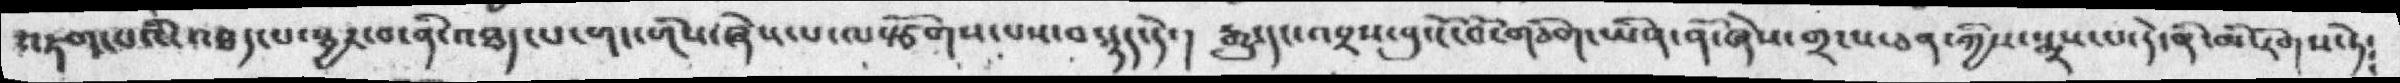འཇག་པའི་འཐད་པ་སྦྱར་བ་ནི་འཐད་པ་གང་གིས་ཞེས་པ་ལསྩོགས་པས་བསྙད་དེ་།  རྒྱུ་དང་འབྲས་བུ་ངོ་བོ་གཅིག་ཡིན་ནོ་ཞེས་གྲངས་ཅན་ཀྱིས་སྨྲས་པ་དེ་ནི་མི་རིགས༴ཏེ
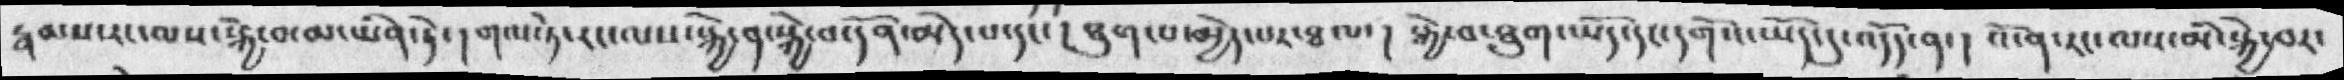རྣམས་རང་ལས་སྐྱེ་བ་མ་ཡིན་ཏེ་།  གལ་ཏེ་རང་ལས་སྐྱེ་ན་སྐྱེ་བ་དོན་མེད་པ་དང་།  ཐུག་པ་མྱེད་པར་ཐལ་།  སྐྱེ་བ་ཐུག་ཡོད་དང་དགོས་ཡོད་དུ་འདོད་ན་། འོ་ན་རང་ལས་མི་སྐྱེ་བར་
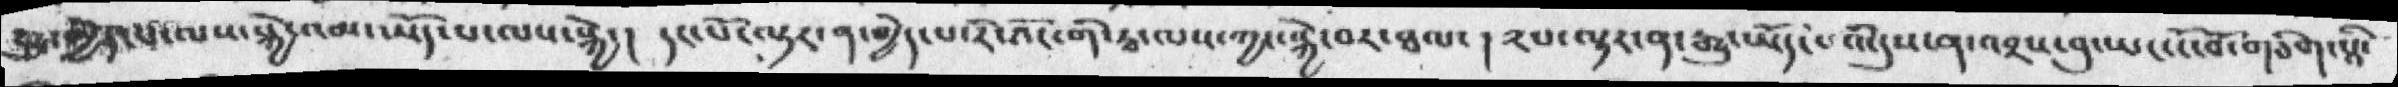སྤུ་མྱེད་པ་ལས་སྐྱེ་འམ་ཡོད་པ་ལས་སྐྱེ་།  དང་པོ་ལྟར་ན་གྱེད་པ་རི་འོང་གི་རྦ་ལས་ཀྱང་སྐྱེ་བར་ཐལ་། ༢པ་ལྟར་ན་རྒྱུ་ཡོད་པའི་དུས་ན་འབྲས་བུ་ཡང་ངོ་བོ་གཅིག་སྡི་
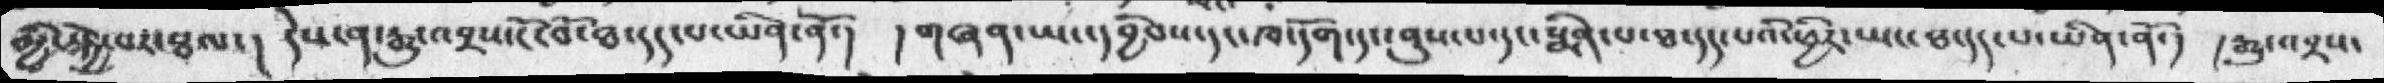མྱི་སྐྱེ་བར་ཐལ་།  དེས་ན་རྒྱུ་འབྲས་ངོ་བོ་ཐ་དད་པ་ཡིན་ནོ་།  ། གཞན་ཡང་དབྱིབས་དང་ཁ་དོག་དང་ནུས་པ་དང་སྨིན་པ་ཐ་དད་པའི་ཕྱིར་ཡང་ཐ་དད་པ་ཡིན་ནོ་།  །རྒྱུ་འབྲས་
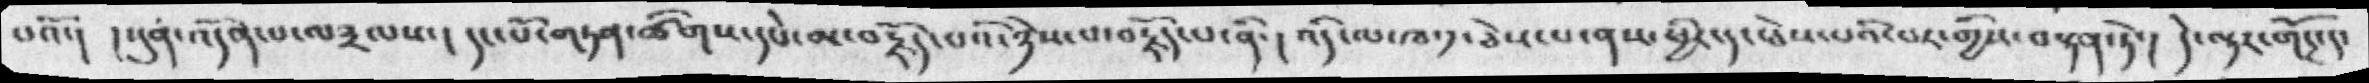པའོ་།  །སུན་འདོན་པ་ལ༣ལས་། དང་པོ་གཏན་ཚིགས་དཔེ་མ་བརྗོད་པའི་ཉེས་པ་བརྗོད་པ་ནི་།  འདི་ལ་ཁ༡་ཅེས་པ་ནས་ཕྱིར་དང་ཅེས་པའི་བར་གྱིས་བསྟན་ཏེ་།  དེ་ལྟར་གོང་དུ་
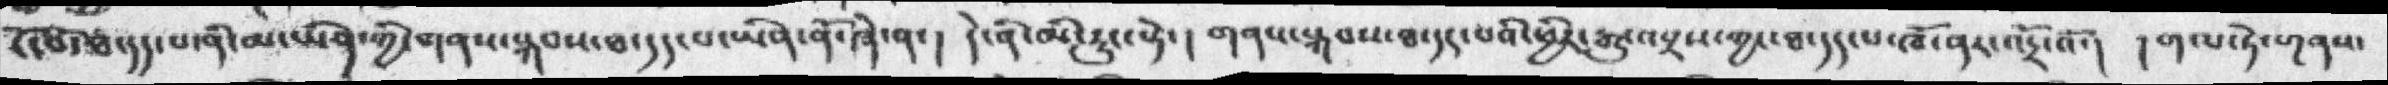ངོ་བོ་ཐ་དད་པ་ནི་མ་ཡིན་ཀྱི་གནས་སྐབས་ཐ་དད་པ་ཡིན་ནོ་ཞེ་ན་།  དེ་ནི་མི་རུང་སྟེ་། གནས་སྐབས་ཐ་དད་པའི་ཕྱིར་རྒྱུ་འབྲས་ཀྱང་ཐ་དད་པ་ཁོ་ནར་འདྲོ་འོ་།  ། གལ་ཏེ་གནས་
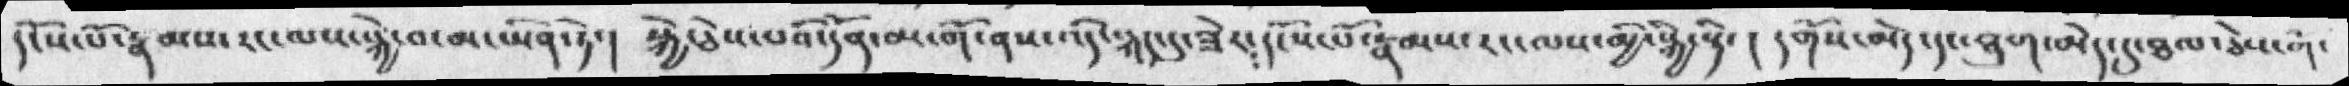དངོས་པོ་རྣམས་རང་ལས་སྐྱེ་བ་མ་ཡིན་ཏེ་།  སྐྱེ་ཅེས་པའི་དོན་མ་གོ་ནས་འདི་སྐད་དུ་ཟེར༴དངོས་པོ་རྣམས་རང་ལས་མྱི་སྐྱི་སྟེ་།  དགོས་མེད་དང་ཐུག་མེད་དུ་ཐལ་ཅེས་གི་
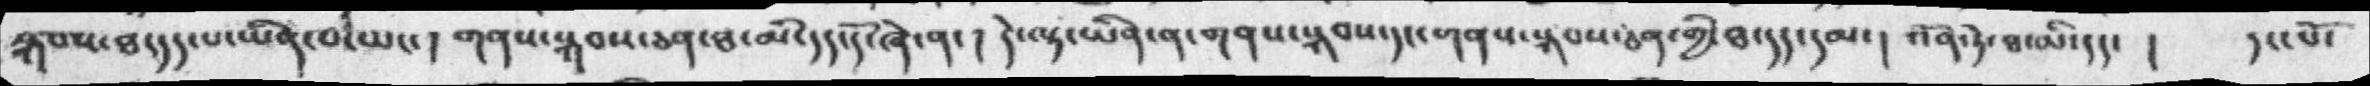སྐབས་ཐ་དད་པ་ཡིན་པ་ཡང་།  གནས་སྐབས་ཅན་ཐ་མི་དད་དོ་ཞེ་ན་།  དེ་ལྟ་ཡིན་ན་གནས་སྐབས་དང་གནས་སྐབས་ཅན་གྱི་ཐ་དད་དམ་།  འོན་ཏེ་ཐ་མི་དད་ ། དང་པོ་
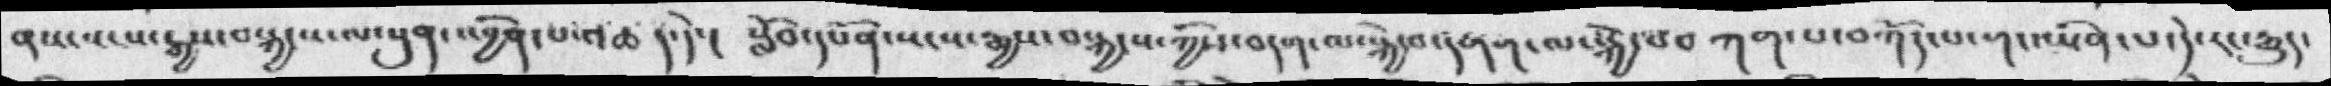ནས་སངས་རྒྱས་བསྐྱངས་ལ་སུན་འབྱིན་པ་འཆད་དེ་།  སློབ་དཔོན་སངས་རྒྱས་བསྐྱངས་ཀྱིས་བདག་ལ་སྐྱེ་བ་དགག་ལ་སྐྱེ་བབཀག་པ་བཀོད་པ་གང་ཡིན་པ་དེ་རང་རྒྱུད་
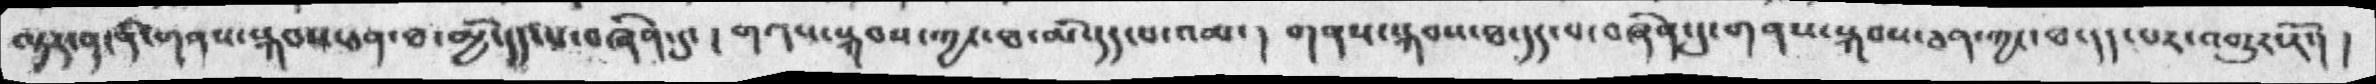ལྟར་ན་ནི་གནས་སྐབས་ཅན་ཐ་མྱི་དད་པ་བཞིན་དུ་ ། གནས་སྐབས་ཀྱང་ཐ་མི་དད་པ་འམ་།  གནས་སྐབས་ཐ་དད་པ་བཞིན་དུ་གནས་སྐབས་ཅན་ཀྱང་ཐ་དད་པར་འགྱུར་རོ་། །
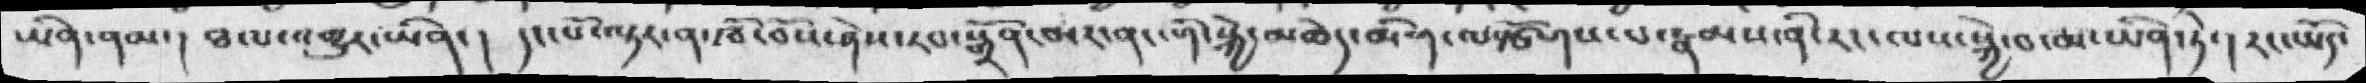ཡིན་ནམ་། ཐལ་འགྱུར་ཡིན་།  དང་པོ་ལྟར་ན་ཁོ་བོས་ཤེས་རབ་སྒྲོན་མར་ནང་གི་སྐྱེ་མཆེད་མིག་ལསྩོགས་པ་རྣམས་ནི་རང་ལས་སྐྱེ་བ་མ་ཡིན་ཏེ་།  རང་ཡོད་
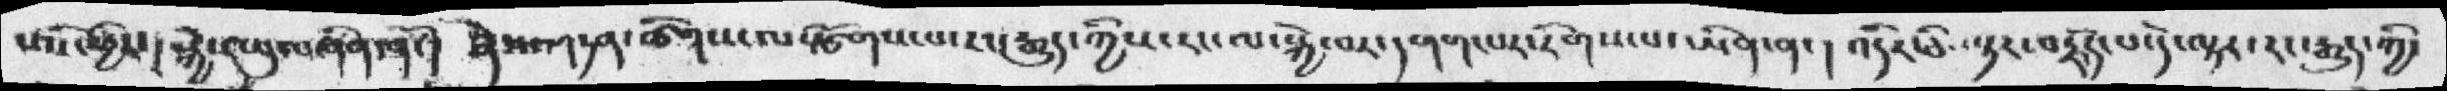པའི་ཕྱིར་། སྐྱེས་བུ་བཞིན་ནོ་།  ཞེས་གཏན་ཚིགས་ལསྩོགས་པ་རང་རྒྱུད་ཀྱིས་རང་ལ་སྐྱེ་བར་དགག་པར་རིགས་པ་ཡིན་ན་ ། འདིར་ཅི་ལྟར་བརྗོད་པ་དེ་ལྟར་རང་རྒྱུད་གྱི་
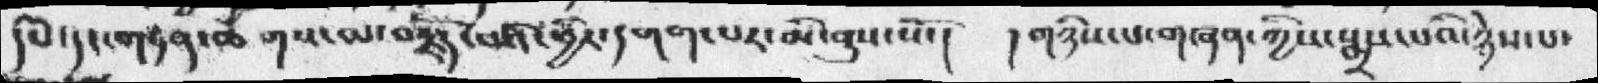དཔེ་དང་གཏན་ཚིགས་མ་བརྗོད་པའི་ཕྱིར་དགག་པར་མི་ནུས་སོ་།  ། གཉིས་པ་གཞན་ཀྱིས་སྨྲས་པའི་ཉེས་པ་
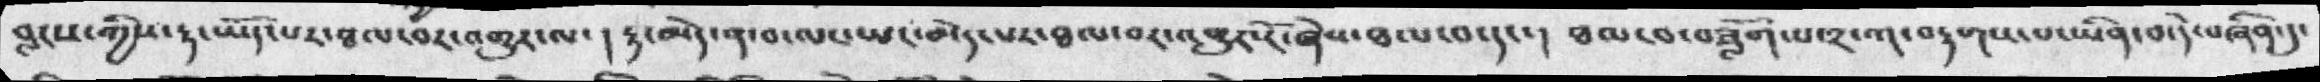བླངས་ཀྱིས་རྟ་ཡོད་པར་ཐལ་བར་འགྱུར་ལ་། རྟ་མེད་ན་བ་ལང་ཡང་མེད་པར་ཐལ་བར་འགྱུར་རོ་ཞེས་ཐལ་བ་དང་།  ཐལ་བ་བཟློག་པ་༢་ཀ་བརྟགས་པ་ཡིན་བ་དེ་བཞིན་དུ་
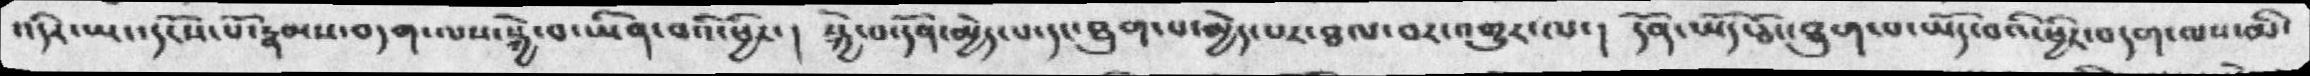འདིར་ཡང་དངོས་པོ་རྣམས་བདག་ལས་སྐྱེ་བ་ཡིན་བའི་ཕྱིར་།  སྐྱེ་བ་དོན་མྱེད་པ་དང་ཐུགས་མྱེད་པར་ཐལ་བར་འགྱུར་ལ་།  དོན་ཡོད་ཅོང་ཐུག་པ་ཡོད་པའི་ཕྱིར་བདག་ལས་མི་
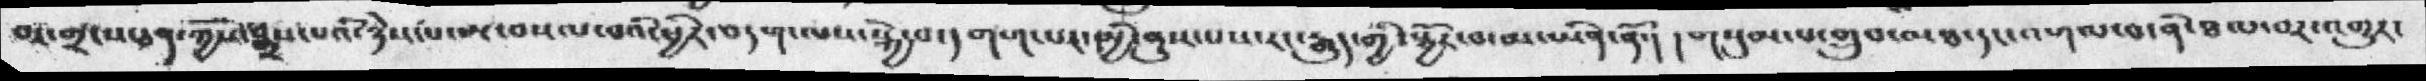བར་གྲངས་ཅན་ཀྱིས་སྨྲས་པའི་ཉེས་པ་མ་བསལ་པའི་ཕྱིར་བདག་ལས་སྐྱེ་བ་དགག་པར་མྱི་ནུས་པས་རང་རྒྱུད་གྱི་སྦྱོར་བ་མ་ཡིན་ནོ་།  གསུམ་པ་གྲུབ་མཐ་དང་འགལ་བ་ནི་ཐལ་བར་འགྱུར་
